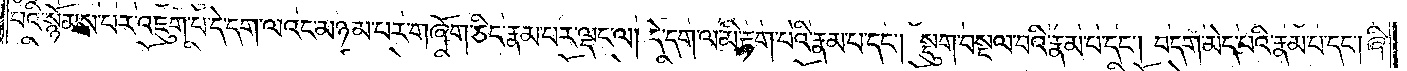པའི་སྙོམས་པར་འཇུག་པ་དེ་དག་ལའང་མཉམ་པར་གཞོག་ཅིང་རྣམ་པར་ལྡང་ལ། དེ་དག་ལ་མི་རྟག་པའི་རྣམ་པ་དང༌། སྡུག་བསྔལ་བའི་རྣམ་པ་དང༌། བདག་མེད་པའི་རྣམ་པ་དང༌། ཞི་
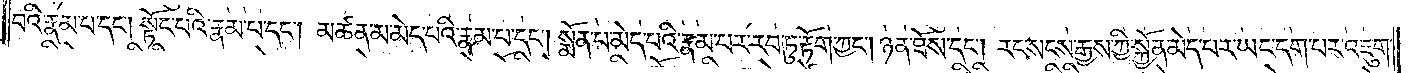བའི་རྣམ་པ་དང༌། སྟོང་པའི་རྣམ་པ་དང༌། མཚན་མ་མེད་པའི་རྣམ་པ་དང༌། སྨོན་པ་མེད་པའི་རྣམ་པར་རབ་ཏུ་རྟོག་ཀྱང༌། ཉན་ཐོས་དང༌། རང་སངས་རྒྱས་ཀྱི་སྐྱོན་མེད་པར་ཡང་དག་པར་འཇུག་
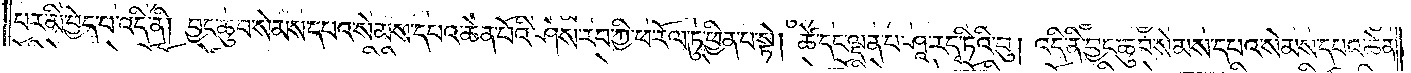པར་མི་བྱེད་པ་འདི་ནི། བྱང་ཆུབ་སེམས་དཔའ་སེམས་དཔའ་ཆེན་པོའི་ཤེས་རབ་ཀྱི་ཕ་རོལ་ཏུ་ཕྱིན་པ་སྟེ། ཚེ་དང་ལྡན་པ་ཤཱ་རདྭ་ཏིའི་བུ། འདི་ནི་བྱང་ཆུབ་སེམས་དཔའ་སེམས་དཔའ་ཆེན་
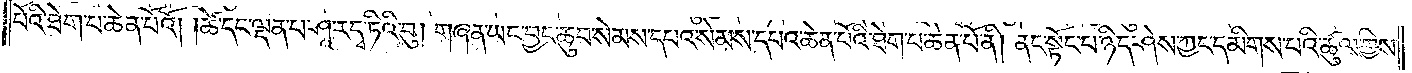པོའི་ཐེག་པ་ཆེན་པོའོ། །ཚེ་དང་ལྡན་པ་ཤཱ་རདྭ་ཏིའི་བུ། གཞན་ཡང་བྱང་ཆུབ་སེམས་དཔའ་སེམས་དཔའ་ཆེན་པོའི་ཐེག་པ་ཆེན་པོ་ནི། ནང་སྟོང་པ་ཉིད་ཤེས་ཀྱང་དམིགས་པའི་ཚུལ་གྱིས་
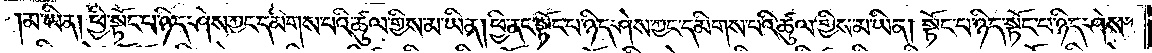མ་ཡིན། ཕྱི་སྟོང་པ་ཉིད་ཤེས་ཀྱང་དམིགས་པའི་ཚུལ་གྱིས་མ་ཡིན། ཕྱི་ནང་སྟོང་པ་ཉིད་ཤེས་ཀྱང་དམིགས་པའི་ཚུལ་གྱིས་མ་ཡིན། སྟོང་པ་ཉིད་སྟོང་པ་ཉིད་ཤེས་
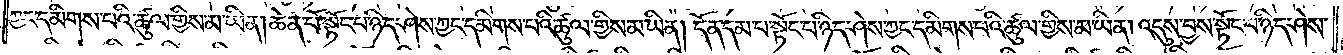ཀྱང་དམིགས་པའི་ཚུལ་གྱིས་མ་ཡིན། ཆེན་པོ་སྟོང་པ་ཉིད་ཤེས་ཀྱང་དམིགས་པའི་ཚུལ་གྱིས་མ་ཡིན། དོན་དམ་པ་སྟོང་པ་ཉིད་ཤེས་ཀྱང་དམིགས་པའི་ཚུལ་གྱིས་མ་ཡིན། འདུས་བྱས་སྟོང་པ་ཉིད་ཤེས་
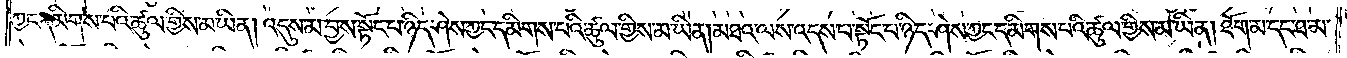ཀྱང་དམིགས་པའི་ཚུལ་གྱིས་མ་ཡིན། འདུས་མ་བྱས་སྟོང་པ་ཉིད་ཤེས་ཀྱང་དམིགས་པའི་ཚུལ་གྱིས་མ་ཡིན། མཐའ་ལས་འདས་པ་སྟོང་པ་ཉིད་ཤེས་ཀྱང་དམིགས་པའི་ཚུལ་གྱིས་མ་ཡིན། ཐོག་མ་དང་ཐ་མ་
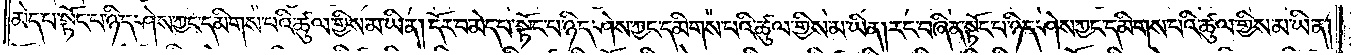མེད་པ་སྟོང་པ་ཉིད་ཤེས་ཀྱང་དམིགས་པའི་ཚུལ་གྱིས་མ་ཡིན། དོར་བ་མེད་པ་སྟོང་པ་ཉིད་ཤེས་ཀྱང་དམིགས་པའི་ཚུལ་གྱིས་མ་ཡིན། རང་བཞིན་སྟོང་པ་ཉིད་ཤེས་ཀྱང་དམིགས་པའི་ཚུལ་གྱིས་མ་ཡིན།
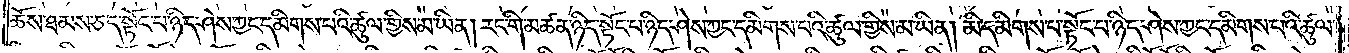ཆོས་ཐམས་ཅད་སྟོང་པ་ཉིད་ཤེས་ཀྱང་དམིགས་པའི་ཚུལ་གྱིས་མ་ཡིན། རང་གི་མཚན་ཉིད་སྟོང་པ་ཉིད་ཤེས་ཀྱང་དམིགས་པའི་ཚུལ་གྱིས་མ་ཡིན། མི་དམིགས་པ་སྟོང་པ་ཉིད་ཤེས་ཀྱང་དམིགས་པའི་ཚུལ་
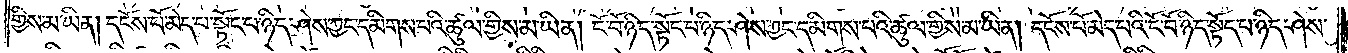གྱིས་མ་ཡིན། དངོས་པོ་མེད་པ་སྟོང་པ་ཉིད་ཤེས་ཀྱང་དམིགས་པའི་ཚུལ་གྱིས་མ་ཡིན། ངོ་བོ་ཉིད་སྟོང་པ་ཉིད་ཤེས་ཀྱང་དམིགས་པའི་ཚུལ་གྱིས་མ་ཡིན། དངོས་པོ་མེད་པའི་ངོ་བོ་ཉིད་སྟོང་པ་ཉིད་ཤེས་
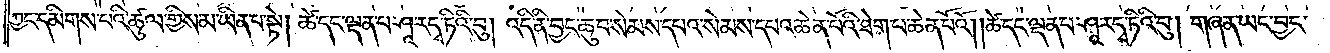ཀྱང་དམིགས་པའི་ཚུལ་གྱིས་མ་ཡིན་པ་སྟེ། ཚེ་དང་ལྡན་པ་ཤཱ་རདྭ་ཏིའི་བུ། འདི་ནི་བྱང་ཆུབ་སེམས་དཔའ་སེམས་དཔའ་ཆེན་པོའི་ཐེག་པ་ཆེན་པོའོ། །ཚེ་དང་ལྡན་པ་ཤཱ་རདྭ་ཏིའི་བུ། གཞན་ཡང་བྱང་
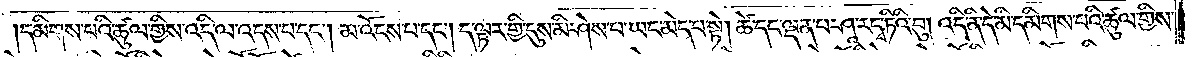དམིགས་པའི་ཚུལ་གྱིས་འདི་ལ་འདས་པ་དང༌། མ་འོངས་པ་དང༌། ད་ལྟར་གྱི་དུས་མི་ཤེས་པ་ཡང་མེད་པ་སྟེ། ཚེ་དང་ལྡན་པ་ཤཱ་རདྭ་ཏིའི་བུ། འདི་ནི་དེ་མི་དམིགས་པའི་ཚུལ་གྱིས་
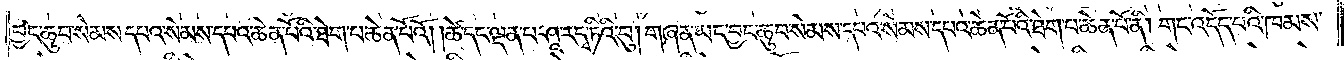བྱང་ཆུབ་སེམས་དཔའ་སེམས་དཔའ་ཆེན་པོའི་ཐེག་པ་ཆེན་པོའོ། །ཚེ་དང་ལྡན་པ་ཤཱ་རདྭ་ཏིའི་བུ། གཞན་ཡང་བྱང་ཆུབ་སེམས་དཔའ་སེམས་དཔའ་ཆེན་པོའི་ཐེག་པ་ཆེན་པོ་ནི། གང་འདོད་པའི་ཁམས་
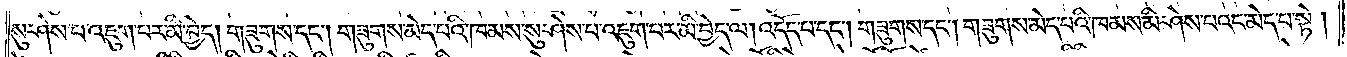སུ་ཤེས་པ་འཇུག་པར་མི་བྱེད། གཟུགས་དང༌། གཟུགས་མེད་པའི་ཁམས་སུ་ཤེས་པ་འཇུག་པར་མི་བྱེད་ལ། འདོད་པ་དང༌། གཟུགས་དང༌། གཟུགས་མེད་པའི་ཁམས་མི་ཤེས་པའང་མེད་པ་སྟེ།
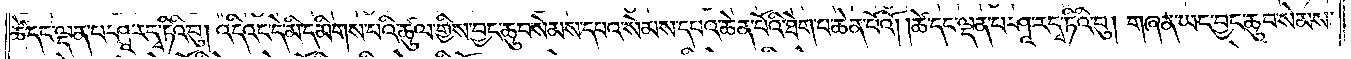ཚེ་དང་ལྡན་པ་ཤཱ་རདྭ་ཏིའི་བུ། འདིའང་དེ་མི་དམིགས་པའི་ཚུལ་གྱིས་བྱང་ཆུབ་སེམས་དཔའ་སེམས་དཔའ་ཆེན་པོའི་ཐེག་པ་ཆེན་པོའོ། །ཚེ་དང་ལྡན་པ་ཤཱ་རདྭ་ཏིའི་བུ། གཞན་ཡང་བྱང་ཆུབ་སེམས་
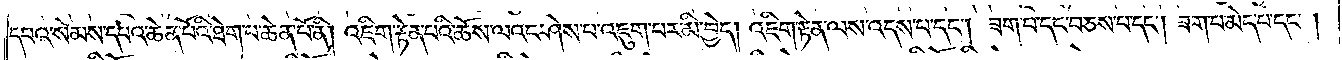དཔའ་སེམས་དཔའ་ཆེན་པོའི་ཐེག་པ་ཆེན་པོ་ནི། འཇིག་རྟེན་པའི་ཆོས་ལའང་ཤེས་པ་འཇུག་པར་མི་བྱེད། འཇིག་རྟེན་ལས་འདས་པ་དང༌། ཟག་པ་དང་བཅས་པ་དང༌། ཟག་པ་མེད་པ་དང༌།
